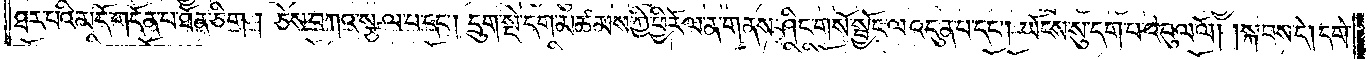ཐར་པའི་མདོ་གདོན་པ་ཐོན་ཅིག། ཅེས་བཀའ་སྩལ་པ་དང༌། དྲུག་སྡེ་དག་མཚམས་ཀྱི་ཕྱི་རོལ་ན་གནས་ཤིང་གསོ་སྦྱོང་ལ་འདུན་པ་དང༌། ཡོངས་སུ་དག་པ་འབུལ་ལོ། །སྐབས་དེ། དགེ་
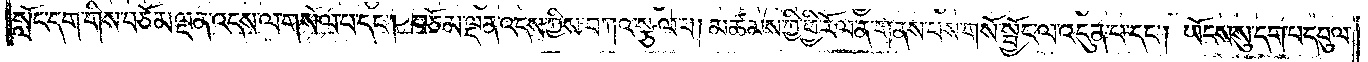སློང་དག་གིས་བཅོམ་ལྡན་འདས་ལ་གསོལ་པ་དང༌། བཅོམ་ལྡན་འདས་ཀྱིས་བཀའ་སྩལ་པ། མཚམས་ཀྱི་ཕྱི་རོལ་ན་གནས་པས་གསོ་སྦྱོང་ལ་འདུན་པ་དང༌། ཡོངས་སུ་དག་པ་དབུལ་
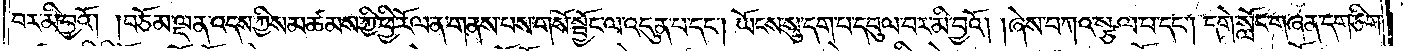བར་མི་བྱའོ། །བཅོམ་ལྡན་འདས་ཀྱིས་མཚམས་ཀྱི་ཕྱི་རོལ་ན་གནས་པས་གསོ་སྦྱོང་ལ་འདུན་པ་དང༌། ཡོངས་སུ་དག་པ་དབུལ་བར་མི་བྱའོ། །ཞེས་བཀའ་སྩལ་པ་དང༌། དགེ་སློང་གཞན་དག་ཅིག་
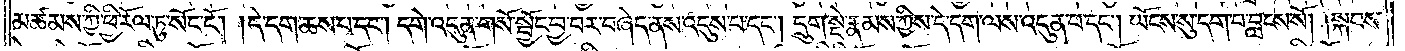མཚམས་ཀྱི་ཕྱི་རོལ་ཏུ་སོང་ངོ༌། །དེ་དག་ཆས་པ་དང༌། དགེ་འདུན་གསོ་སྦྱོང་བྱ་བར་བཞེད་ནས་འདུས་པ་དང༌། དྲུག་སྡེ་རྣམས་ཀྱིས་དེ་དག་ལས་འདུན་པ་དང༌། ཡོངས་སུ་དག་པ་བླངས་སོ། །སྐབས་
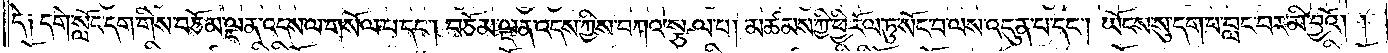དེ༑ དགེ་སློང་དག་གིས་བཅོམ་ལྡན་འདས་ལ་གསོལ་པ་དང༌། བཅོམ་ལྡན་འདས་ཀྱིས་བཀའ་སྩལ་པ། མཚམས་ཀྱི་ཕྱི་རོལ་ཏུ་སོང་བ་ལས་འདུན་པ་དང༌། ཡོངས་སུ་དག་པ་བླང་བར་མི་བྱའོ། །
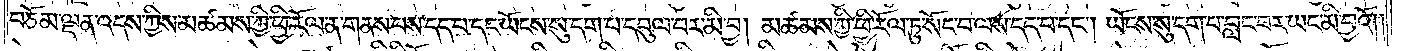བཅོམ་ལྡན་འདས་ཀྱིས་མཚམས་ཀྱི་ཕྱི་རོལ་ན་གནས་པས་དད་པ་དང་ཡོངས་སུ་དག་པ་དབུལ་བར་མི་བྱ། མཚམས་ཀྱི་ཕྱི་རོལ་ཏུ་སོང་བ་ལས་དད་པ་དང༌། ཡོངས་སུ་དག་པ་བླང་བར་ཡང་མི་བྱའོ། །
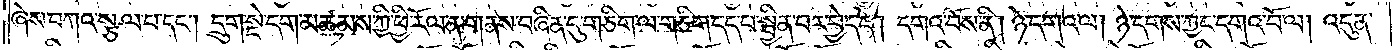ཞེས་བཀའ་སྩལ་པ་དང༌། དྲུག་སྡེ་དག་མཚམས་ཀྱི་ཕྱི་རོལ་ན་གནས་བཞིན་དུ་གཅིག་ལ་གཅིག་དད་པ་སྦྱིན་པར་བྱེད་དེ། དགའ་བོས་ནི། ཉེ་དགའ་ལ། ཉེ་དགས་ཀྱང་དགའ་བོ་ལ། འདུན་
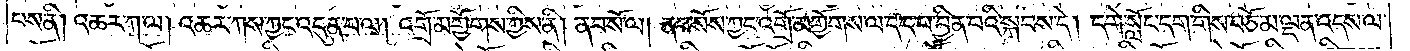པས་ནི། འཆར་ཀ་ལ། འཆར་ཀས་ཀྱང་འདུན་པ་ལ། འགྲོ་མགྱོགས་ཀྱིས་ནི། ནབ་སོ་ལ། ནབ་སོས་ཀྱང་འགྲོ་མགྱོགས་ལ་དད་པ་བྱིན་པའི་སྐབས་དེ། དགེ་སློང་དག་གིས་བཅོམ་ལྡན་འདས་ལ་
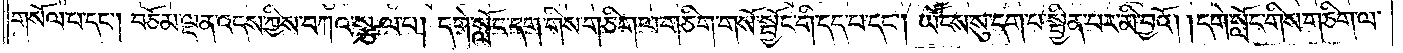གསོལ་པ་དང༌། བཅོམ་ལྡན་འདས་ཀྱིས་བཀའ་སྩལ་པ། དགེ་སློང་དག་གིས་གཅིག་ལ་གཅིག་གསོ་སྦྱོང་གི་དད་པ་དང༌། ཡོངས་སུ་དག་པ་སྦྱིན་པར་མི་བྱའོ། །དགེ་སློང་གིས་གཅིག་ལ་
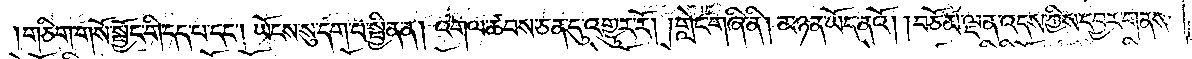གཅིག་གསོ་སྦྱོང་གི་དད་པ་དང༌། ཡོངས་སུ་དག་པ་སྦྱིན་ན། འགལ་ཚབས་ཅན་དུ་འགྱུར་རོ། །གླེང་གཞི་ནི། མཉན་ཡོད་ནའོ། །བཅོམ་ལྡན་འདས་ཀྱིས་དབྱར་གནས་
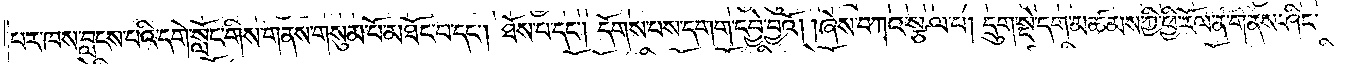པར་ཁས་བླངས་པའི་དགེ་སློང་གིས་གནས་གསུམ་པོ་མཐོང་བ་དང༌། ཐོས་པ་དང༌། དོགས་པས་དགག་དབྱེ་བྱའོ། །ཞེས་བཀའ་སྩལ་པ། དྲུག་སྡེ་དག་མཚམས་ཀྱི་ཕྱི་རོལ་ན་གནས་ཤིང་
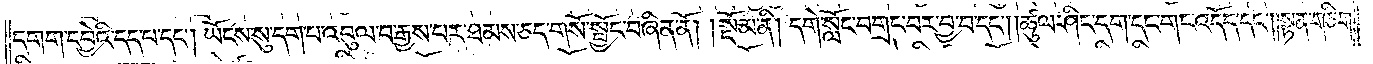དགག་དབྱེའི་དད་པ་དང༌། ཡོངས་སུ་དག་པ་འབུལ་བ་རྒྱས་པར་ཐམས་ཅད་གསོ་སྦྱོང་བཞིན་ནོ།    །སྡོམ་ནི། དགེ་སློང་བགྲང་བར་བྱ་བ་དང༌། ཚུལ་ཤིང་དག་དང་གང་འདོད་དང༌། །སྟན་གཅིག་
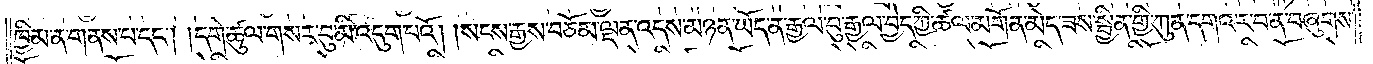ཁྱིམ་ན་གནས་པ་དང༌། །དགེ་ཚུལ་གསར་བུ་མི་འདུག་པའོ། །སངས་རྒྱས་བཅོམ་ལྡན་འདས་མཉན་ཡོད་ན་རྒྱལ་བུ་རྒྱལ་བྱེད་ཀྱི་ཚལ་མགོན་མེད་ཟས་སྦྱིན་གྱི་ཀུན་དགའ་ར་བ་ན་བཞུགས་
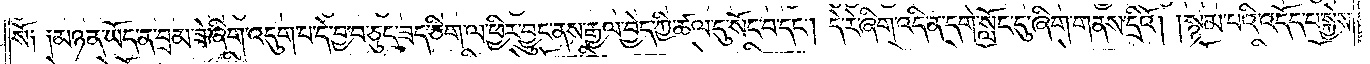སོ༑ ༑མཉན་ཡོད་ན་བྲམ་ཟེ་ཞིག་འདུག་པ་དེ་བྱ་བ་ཅུང་ཟད་ཅིག་ལ་ཕྱིར་བྱུང་ནས་རྒྱལ་བྱེད་ཀྱི་ཚལ་དུ་སོང་བ་དང༌། དེ་རེ་ཞིག་འདི་ན་དགེ་སློང་དུ་ཞིག་གནས་དྲིའོ། །སྙམ་པའི་འདོད་པ་སྐྱེས་
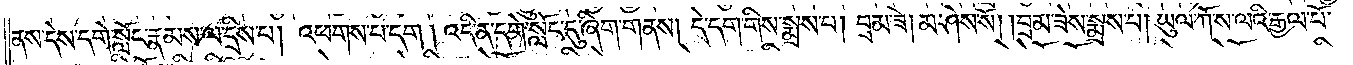ནས་དེས་དགེ་སློང་རྣམས་ལ་དྲིས་པ། འཕགས་པ་དག །འདི་ན་དགེ་སློང་དུ་ཞིག་གནས། དེ་དག་གིས་སྨྲས་པ། བྲམ་ཟེ། མ་ཤེས་སོ། །བྲམ་ཟེས་སྨྲས་པ། ཡུལ་ཀོ་ས་ལའི་རྒྱལ་པོ་
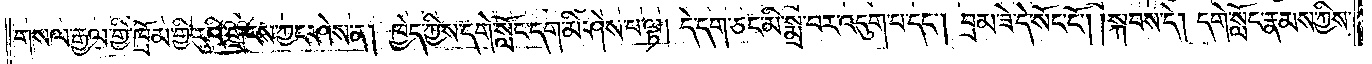གསལ་རྒྱལ་གྱི་ཁྲོམ་གྱི་རུའི་གྲངས་ཀྱང་ཤེས་ན། ཁྱེད་ཀྱིས་དགེ་སློང་དག་མི་ཤེས་པ་ལྟ། དེ་དག་ཅང་མི་སྨྲ་བར་འདུག་པ་དང༌། བྲམ་ཟེ་དེ་སོང་ངོ༌། །སྐབས་དེ། དགེ་སློང་རྣམས་ཀྱིས་
